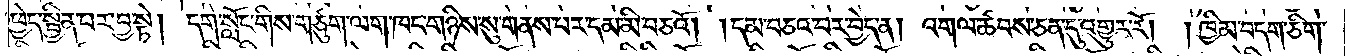ཕྱེད་སྦྱིན་པར་བྱ་སྟེ། དགེ་སློང་གིས་གཙུག་ལག་ཁང་གཉིས་སུ་གནས་པར་དམ་མི་བཅའོ། །དམ་བཅའ་བར་བྱེད་ན། འགལ་ཚབས་ཅན་དུ་འགྱུར་རོ། །ཁྱིམ་བདག་ཅིག་
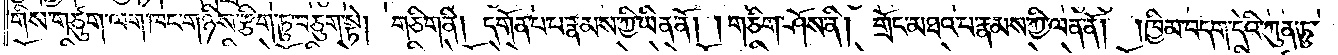གིས་གཙུག་ལག་ཁང་གཉིས་རྩིག་ཏུ་བཅུག་སྟེ། གཅིག་ནི། དགོན་པ་པ་རྣམས་ཀྱི་ཡིན་ནོ། །གཅིག་ཤོས་ནི། གྲོང་མཐའ་པ་རྣམས་ཀྱི་ལན་ནོ། །ཁྱིམ་བདག་དེའི་ཀུན་ཏུ་
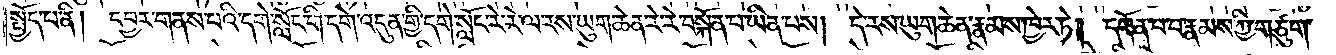སྤྱོད་པ་ནི། དབྱར་གནས་པའི་དགེ་སློང་གི་དགེ་འདུན་གྱི་དགེ་སློང་རེ་རེ་ལ་རས་ཡུག་ཆེན་རེ་རེ་བསྐོན་པ་ཡིན་པས། དེ་རས་ཡུག་ཆེན་རྣམས་ཁྱེར་ཏེ། དགོན་པ་བ་རྣམས་ཀྱི་གཙུག་
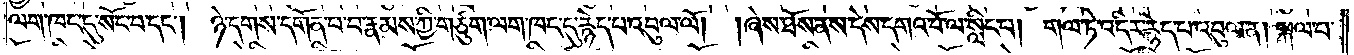ལག་ཁང་དུ་སོང་བ་དང༌། ཉེ་དགས་དགོན་པ་བ་རྣམས་ཀྱི་གཙུག་ལག་ཁང་དུ་རྙེད་པ་འབུལ་ལོ། །ཞེས་ཐོས་ནས་དེས་དགའ་བོ་ལ་སླིང་པ། གལ་ཏེ་འདིར་རྙེད་པ་འབུལ་ན། སྐལ་བ་
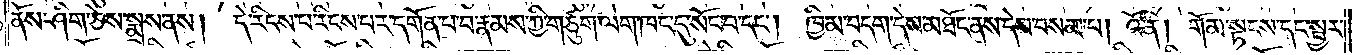ནོས་ཤིག་ཅེས་སྨྲས་ནས། དེ་རིངས་པ་རིངས་པར་དགོན་པ་བ་རྣམས་ཀྱི་གཙུག་ལག་ཁང་དུ་སོང་བ་དང༌། ཁྱིམ་བདག་དེས་མཐོང་ནས་དེས་བསམ་པ། འོ་ནི། གོམ་སྟངས་དང་སྦྱར་
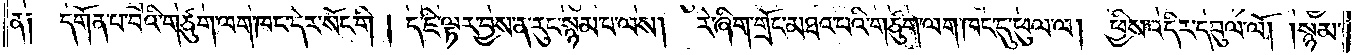ན༑ དགོན་པ་བའི་གཙུག་ལག་ཁང་དེར་སོང་གི། ད་ཇི་ལྟར་བྱས་ན་རུང་སྙམ་པ་ལས། རེ་ཞིག་གྲོང་མཐའ་བའི་གཙུག་ལག་ཁང་དུ་ཕུལ་ལ། ཕྱིས་འདིར་དབུལ་ལོ། །སྙམ་
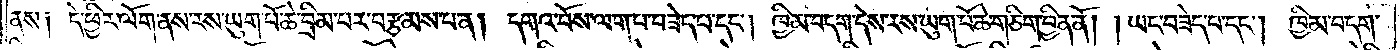ནས། དེ་ཕྱིར་ལོག་ནས་རས་ཡུག་པོ་ཆེ་བྲིམ་པར་བརྩམས་པ་ན། དགའ་བོས་ལག་པ་བཟེད་པ་དང༌། ཁྱིམ་བདག་དེས་རས་ཡུག་པོ་ཆེ་གཅིག་བྱིན་ནོ། །ཡང་བཟེད་པ་དང༌། ཁྱིམ་བདག་
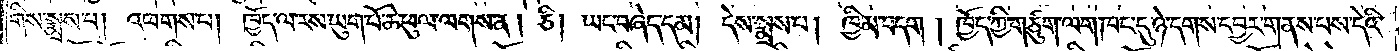གིས་སྨྲས་པ། འཕགས་པ། ཁྱོད་ལ་རས་ཡུག་པོ་ཆེ་ཕུལ་ལགས་ན། ཅི། ཡང་བཞེད་དམ། དེས་སྨྲས་པ། ཁྱིམ་བདག། ཁྱོད་ཀྱི་གཙུག་ལག་ཁང་དུ་ཉེ་དགས་དབྱར་གནས་པས་དེའི་
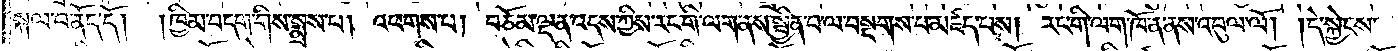སྐལ་པ་ནོད་དོ། །ཁྱིམ་བདག་གིས་སྨྲས་པ། འཕགས་པ། བཅོམ་ལྡན་འདས་ཀྱིས་རང་གི་ལག་ནས་སྦྱིན་པ་ལ་བསྔགས་པ་མཛད་པས། རང་གི་ལག་ཁོ་ན་ནས་འབུལ་ལོ། །དེ་སྐྱེངས་
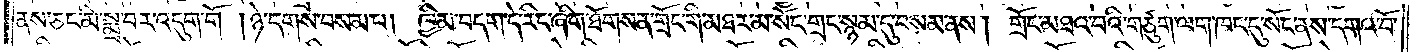ནས་ཅང་མི་སྨྲ་བར་འདུག་གོ། ཉེ་དགས་བསམ་པ། ཁྱིམ་བདག་དེ་རིང་ཞིག་ཐོགས་ན་གྲོང་གི་མཐར་མ་སོང་གྲང་སྙམ་དུ་བསམ་ནས། གྲོང་མཐའ་བའི་གཙུག་ལག་ཁང་དུ་སོང་ནས་དགའ་བོ་
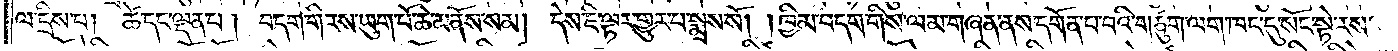ལ་དྲིས་པ། ཚེ་དང་ལྡན་པ། བདག་གི་རས་ཡུག་པོ་ཆེ་མནོས་སམ། དེས་ཇི་ལྟར་གྱུར་པ་སྨྲས་སོ། །ཁྱིམ་བདག་གིས་ལམ་གཞན་ནས་དགོན་པ་བའི་གཙུག་ལག་ཁང་དུ་སོང་སྟེ་རས་
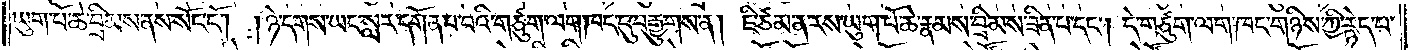ཡུག་པོ་ཆེ་བྲིམས་ནས་སོང་ངོ༌། །ཉེ་དགས་ཡང་སླར་དགོན་པ་བའི་གཙུག་ལག་ཁང་དུ་བརྒྱུགས་ན། ཇི་ཙམ་ན་རས་ཡུག་པོ་ཆེ་རྣམས་བྲིམས་ཟིན་པ་དང༌། དེ་གཙུག་ལག་ཁང་གཉིས་ཀྱི་རྙེད་པ་
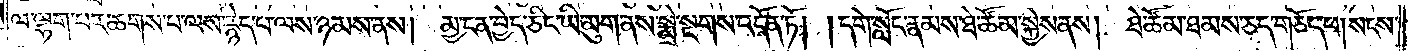ལ་ལྷག་པར་ཆགས་པ་ལས་རྙེད་པ་ལས་ཉམས་ནས། མྱ་ངན་བྱེད་ཅིང་ཡི་མུག་ནས་སྨྲེ་སྔགས་འདོན་ཏོ། །དགེ་སློང་རྣམས་ཐེ་ཚོམ་སྐྱེས་ནས། ཐེ་ཚོམ་ཐམས་ཅད་གཅོད་པ། སངས་
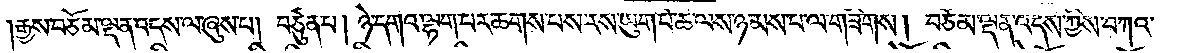རྒྱས་བཅོམ་ལྡན་འདས་ལ་ཞུས་པ། བཙུན་པ། ཉེ་དགའ་ལྷག་པར་ཆགས་པས་རས་ཡུག་པོ་ཆེ་ལས་ཉམས་པ་ལ་གཟིགས། བཅོམ་ལྡན་འདས་ཀྱིས་བཀའ་
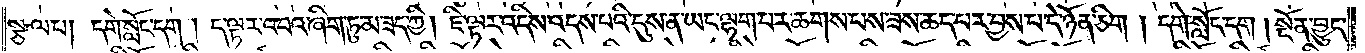སྩལ་པ། དགེ་སློང་དག །ད་ལྟར་འབའ་ཞིག་ཏུ་མ་ཟད་ཀྱི། ཇི་ལྟར་འདིས་འདས་པའི་དུས་ན་ཡང་ལྷག་པར་ཆགས་པས་ཟས་ཆད་པར་བྱས་པ་དེ་ཉོན་ཅིག །དགེ་སློང་དག །སྔོན་བྱུང་
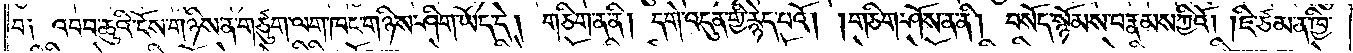བ༑ འབབ་ཆུའི་ངོས་གཉིས་ན་གཙུག་ལག་ཁང་གཉིས་ཤིག་ཡོད་དེ། གཅིག་ན་ནི། དགེ་འདུན་གྱི་རྙེད་པའོ། །གཅིག་ཤོས་ན་ནི། བསོད་སྙོམས་པ་རྣམས་ཀྱིའོ། །ཇི་ཙམ་ན་ཁྱི་
